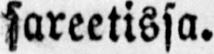sareetissa.
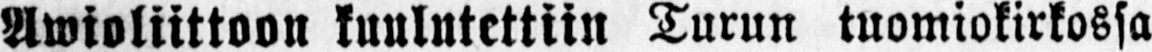Awioliittoon kuulutettiin Turun tuomiokirkossa
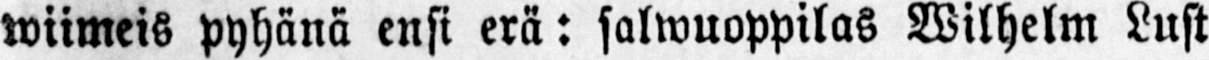wiimeis pyhänä ensi erä: salwuoppilas Wilhelm Lust
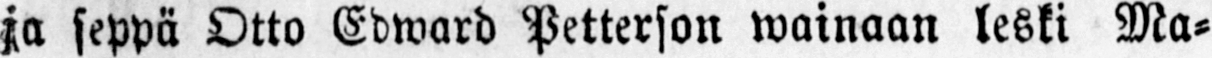ja seppä Otto Edward Petterson wainaan leski Ma-
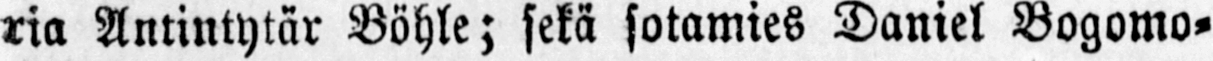ria Antintytär Böhle; sekä sotamies Daniel Bogomo-
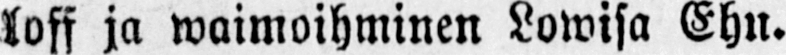loff ja waimoihminen Lowisa Ehn.
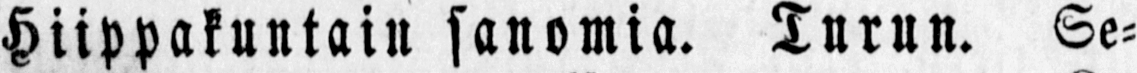Hiippakuntain sanomia. Turun. Se-
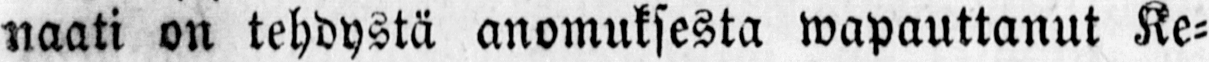naati on tehdystä anomuksesta wapauttanut Ke-
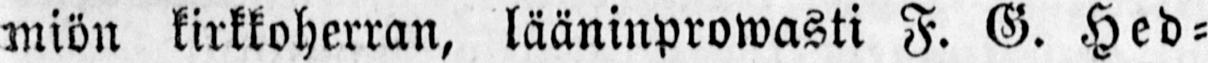miön kirkkoherran, lääninprowasti F. G. Hed-
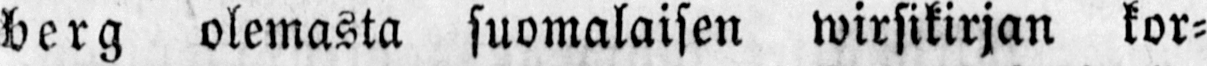berg olemasta suomalaisen wirsikirjan kor-
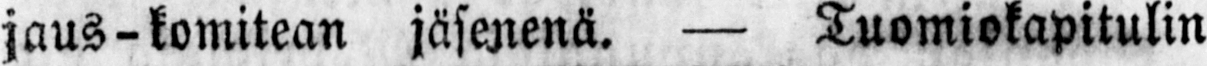jaus-komitean jäsenenä. — Tuomiokapitulin
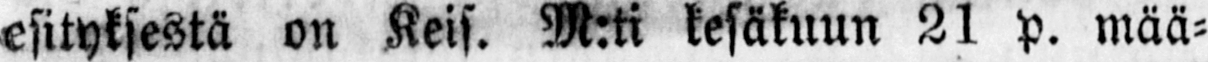esityksestä on Keis. M:ti kesäkuun 21 p. mää-
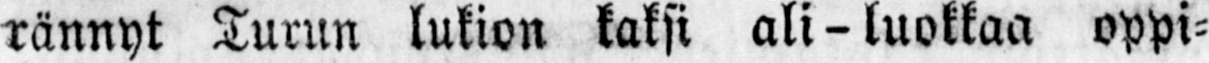rännyt Turun lukion kaksi ali-luokkaa oppi-
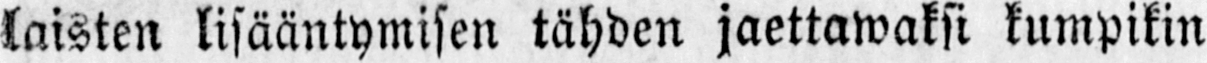laisten lisääntymisen tähden jaettawaksi kumpikin
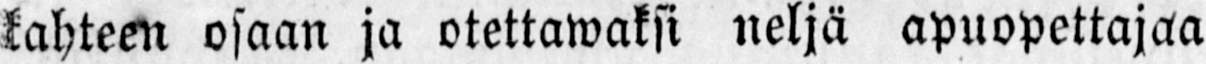kahteen osaan ja otettawaksi neljä apuopettajaa
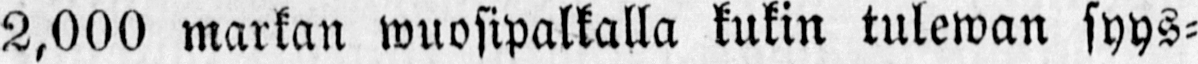2,000 markan wuosipalkalla kukin tulewan syys-
